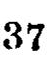37
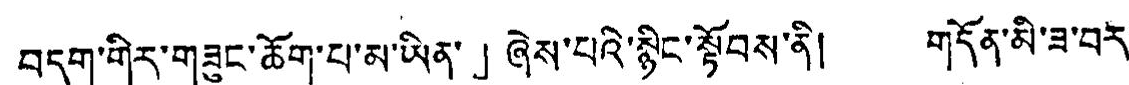བདག་གིར་གཟུང་ཆོག་པ་མ་ཡིན་」ཞེས་པའི་སྙིང་སྟོབས་ནི། གདོན་མི་ཟ་བར་
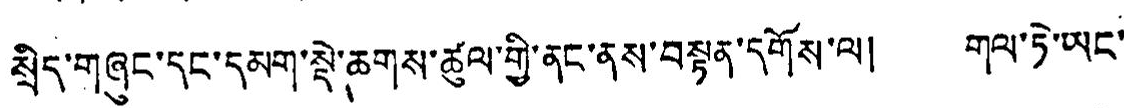སྲིད་གཞུང་དང་དམག་སྡེ་ཆགས་ཚུལ་གྱི་ནང་ནས་བསྟན་དགོས་ལ། གལ་ཏེ་ཡང་
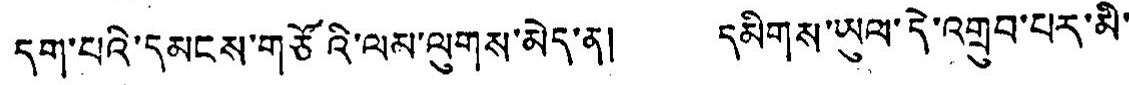དག་པའི་དམངས་གཙོའི་ལམ་ལུགས་མེད་ན། དམིགས་ཡུལ་དེ་འགྲུབ་པར་མི་
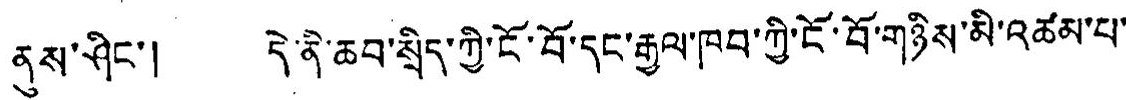ནུས་ཤིང་། དེ་ནི་ཆབ་སྲིད་ཀྱི་ངོ་བོ་དང་རྒྱལ་ཁབ་ཀྱི་ངོ་བོ་གཉིས་མི་འཚམ་པ་
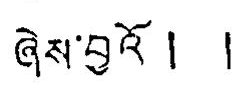ཞེས་བྱའོ། །
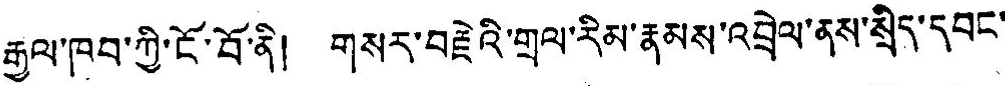རྒྱལ་ཁབ་ཀྱི་ངོ་བོ་ནི། གསར་བརྗེའི་གྲལ་རིམ་རྣམས་འབྲེལ་ནས་སྲིད་དབང་
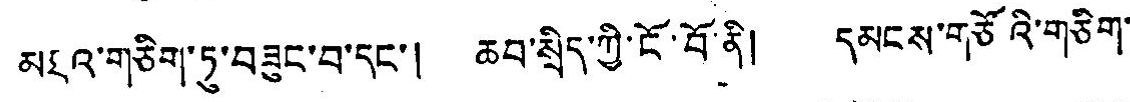མཐའ་གཅིག་ཏུ་བཟུང་བ་དང་། ཆབ་སྲིད་ཀྱི་ངོ་བོ་ནི། དམངས་གཙོའི་གཅིག་
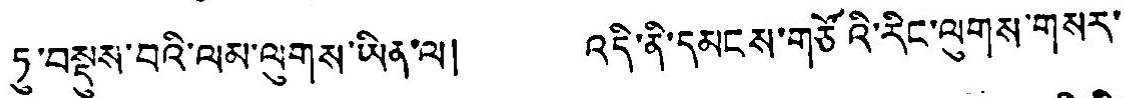ཏུ་བསྡུས་བའི་ལམ་ལུགས་ཡིན་ལ། འདི་ནི་དམངས་གཙོའི་རིང་ལུགས་གསར་
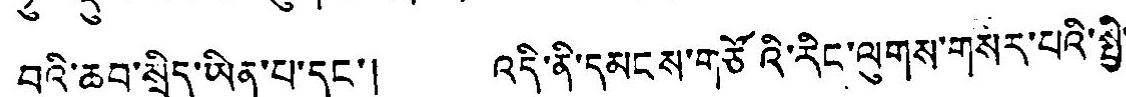བའི་ཆབ་སྲིད་ཡིན་པ་དང་། འདི་ནི་དམངས་གཙོའི་རིང་ལུགས་གསར་པའི་སྤྱི་
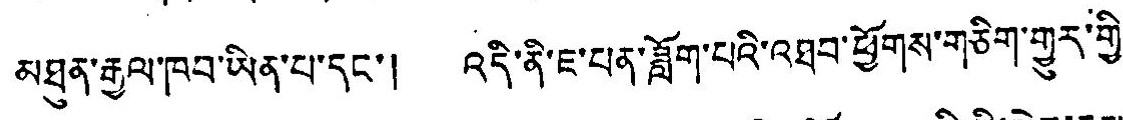མཐུན་རྒྱལ་ཁབ་ཡིན་པ་དང་། འདི་ནི་ཇ་པན་ཟློག་པའི་འཐབ་ཕྱོགས་གཅིག་གྱུར་གྱི་
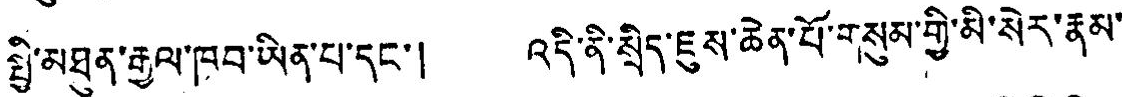སྤྱི་མཐུན་རྒྱལ་ཁབ་ཡིན་པ་དང་། འདི་ནི་སྲིད་ཇུས་ཆེན་པོ་གསུམ་གྱི་མི་སེར་རྣམ་
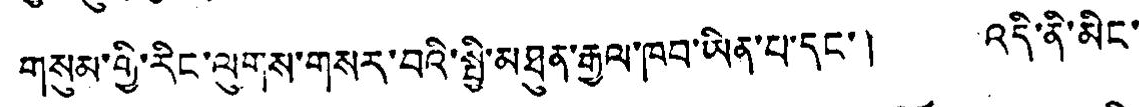གསུམ་གྱི་རིང་ལུགས་གསར་བའི་སྤྱི་མཐུན་རྒྱལ་ཁབ་ཡིན་པ་དང་། འདི་ནི་མིང་
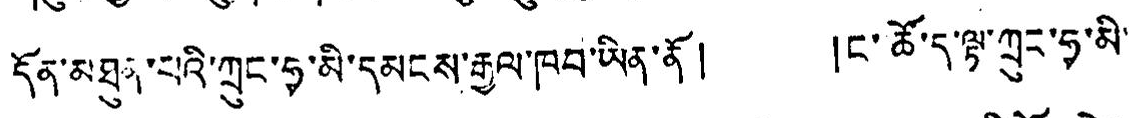དོན་མཐུན་པའི་ཀྲུང་ཧྭ་མི་དམངས་རྒྱལ་ཁབ་ཡིན་ནོ། །ང་ཚོ་ད་ལྟ་ཀྲུང་ཧྭ་མི་
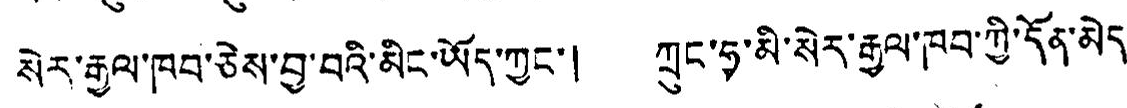སེར་རྒྱལ་ཁབ་ཅེས་བྱ་བའི་མིང་ཡོད་ཀྱང་། ཀྲུང་ཧྭ་མི་སེར་རྒྱལ་ཁབ་ཀྱི་དོན་མེད་
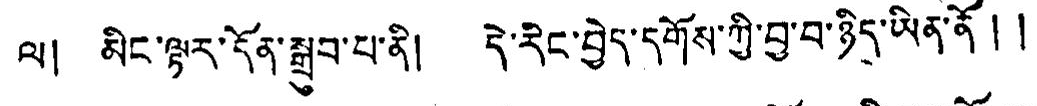ལ། མིང་ལྟར་དོན་སྒྲུབ་པ་ནི། དེ་རིང་བྱེད་དགོས་ཀྱི་བྱ་བ་ཉིད་ཡིན་ནོ། །
